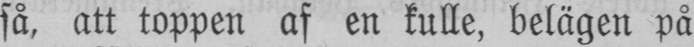så, att toppen af en kulle, belägen på
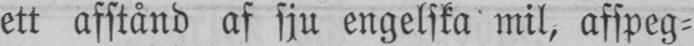ett afstånd af sju engelska mil, afspeg-
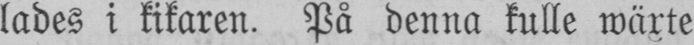lades i kikaren. På denna kulle wäxte
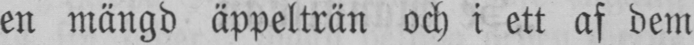en mängd äppelträn och i ett af dem
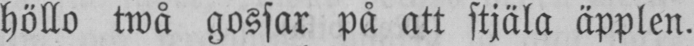höllo twå gossar på att stjäla äpplen.
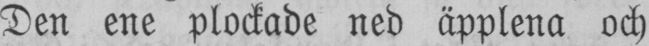Den ene plockade ned äpplena och
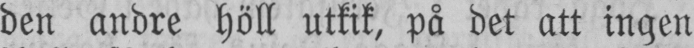den andre höll utkik, på det att ingen
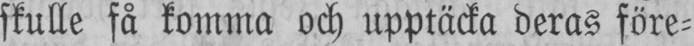skulle få komma och upptäcka deras före-
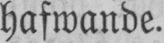hafwande.
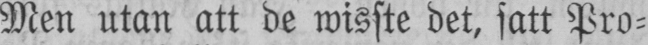Men utan att de wisste det, satt Pro-
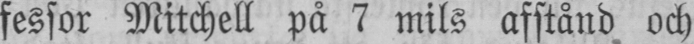fessor Mitchell på 7 mils afstånd och
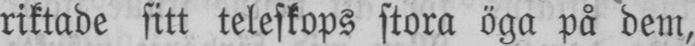riktade sitt teleskops stora öga på dem,
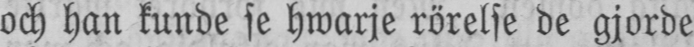och han kunde se hwarje rörelse de gjorde
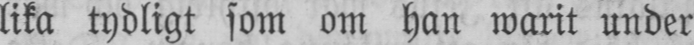lika tydligt som om han warit under
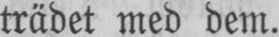trädet med dem.
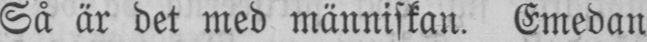Så är det med människan. Emedan
